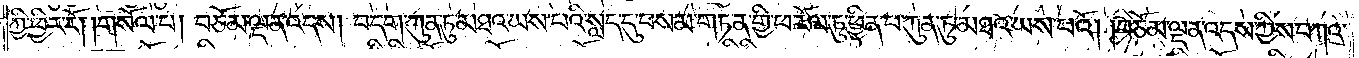ཀྱི་ཕྱིར་རོ། །གསོལ་པ། བཅོམ་ལྡན་འདས། བདག་ཀུན་ཏུ་མཐའ་ཡས་པའི་སླད་དུ་བསམ་གཏན་གྱི་ཕ་རོལ་ཏུ་ཕྱིན་པ་ཀུན་ཏུ་མཐའ་ཡས་པའོ། །བཅོམ་ལྡན་འདས་ཀྱིས་བཀའ་
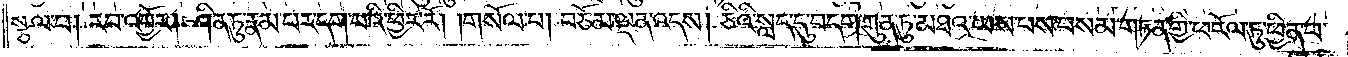སྩལ་པ། རབ་འབྱོར། ཤིན་ཏུ་རྣམ་པར་དག་པའི་ཕྱིར་རོ། །གསོལ་པ། བཅོམ་ལྡན་འདས། ཅིའི་སླད་དུ་བདག་ཀུན་ཏུ་མཐའ་ཡས་པས་བསམ་གཏན་གྱི་ཕ་རོལ་ཏུ་ཕྱིན་པ་
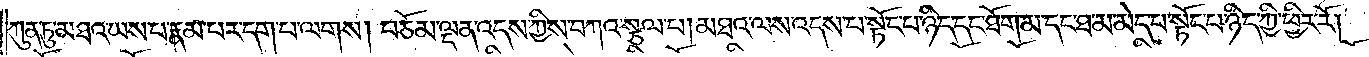ཀུན་ཏུ་མཐའ་ཡས་པ་རྣམ་པར་དག་པ་ལགས། བཅོམ་ལྡན་འདས་ཀྱིས་བཀའ་སྩལ་པ། མཐའ་ལས་འདས་པ་སྟོང་པ་ཉིད་དང་ཐོག་མ་དང་ཐ་མ་མེད་པ་སྟོང་པ་ཉིད་ཀྱི་ཕྱིར་རོ། །
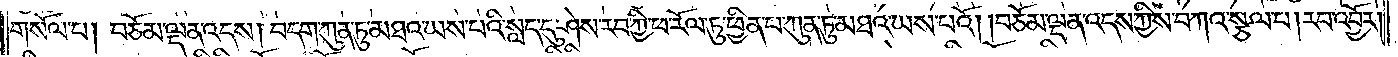གསོལ་པ། བཅོམ་ལྡན་འདས། བདག་ཀུན་ཏུ་མཐའ་ཡས་པའི་སླད་དུ་ཤེས་རབ་ཀྱི་ཕ་རོལ་ཏུ་ཕྱིན་པ་ཀུན་ཏུ་མཐའ་ཡས་པའོ། །བཅོམ་ལྡན་འདས་ཀྱིས་བཀའ་སྩལ་པ། རབ་འབྱོར།
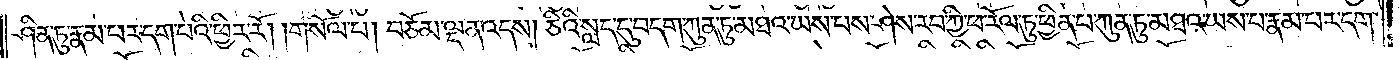ཤིན་ཏུ་རྣམ་པར་དག་པའི་ཕྱིར་རོ། །གསོལ་པ། བཅོམ་ལྡན་འདས། ཅིའི་སླད་དུ་བདག་ཀུན་ཏུ་མཐའ་ཡས་པས་ཤེས་རབ་ཀྱི་ཕ་རོལ་ཏུ་ཕྱིན་པ་ཀུན་ཏུ་མཐའ་ཡས་པ་རྣམ་པར་དག་
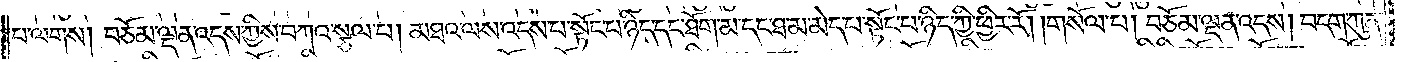པ་ལགས། བཅོམ་ལྡན་འདས་ཀྱིས་བཀའ་སྩལ་པ། མཐའ་ལས་འདས་པ་སྟོང་པ་ཉིད་དང་ཐོག་མ་དང་ཐ་མ་མེད་པ་སྟོང་པ་ཉིད་ཀྱི་ཕྱིར་རོ། །གསོལ་པ། བཅོམ་ལྡན་འདས། བདག་ཀུན་
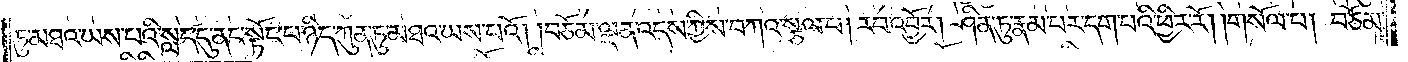ཏུ་མཐའ་ཡས་པའི་སླད་དུ་ནང་སྟོང་པ་ཉིད་ཀུན་ཏུ་མཐའ་ཡས་པའོ། །བཅོམ་ལྡན་འདས་ཀྱིས་བཀའ་སྩལ་པ། རབ་འབྱོར། ཤིན་ཏུ་རྣམ་པར་དག་པའི་ཕྱིར་རོ། །གསོལ་པ། བཅོམ་
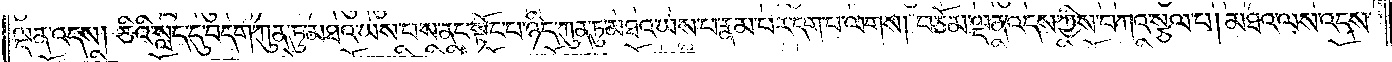ལྡན་འདས། ཅིའི་སླད་དུ་བདག་ཀུན་ཏུ་མཐའ་ཡས་པས་ནང་སྟོང་པ་ཉིད་ཀུན་ཏུ་མཐའ་ཡས་པ་རྣམ་པར་དག་པ་ལགས། བཅོམ་ལྡན་འདས་ཀྱིས་བཀའ་སྩལ་པ། མཐའ་ལས་འདས་
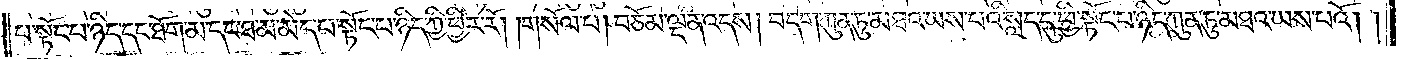པ་སྟོང་པ་ཉིད་དང་ཐོག་མ་དང་ཐ་མ་མེད་པ་སྟོང་པ་ཉིད་ཀྱི་ཕྱིར་རོ། །གསོལ་པ། བཅོམ་ལྡན་འདས། བདག་ཀུན་ཏུ་མཐའ་ཡས་པའི་སླད་དུ་ཕྱི་སྟོང་པ་ཉིད་ཀུན་ཏུ་མཐའ་ཡས་པའོ། །
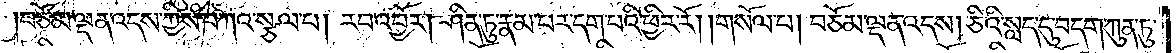བཅོམ་ལྡན་འདས་ཀྱིས་བཀའ་སྩལ་པ། རབ་འབྱོར། ཤིན་ཏུ་རྣམ་པར་དག་པའི་ཕྱིར་རོ། །གསོལ་པ། བཅོམ་ལྡན་འདས། ཅིའི་སླད་དུ་བདག་ཀུན་ཏུ་
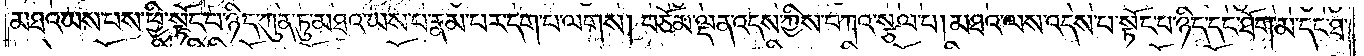མཐའ་ཡས་པས་ཕྱི་སྟོང་པ་ཉིད་ཀུན་ཏུ་མཐའ་ཡས་པ་རྣམ་པར་དག་པ་ལགས། བཅོམ་ལྡན་འདས་ཀྱིས་བཀའ་སྩལ་པ། མཐའ་ལས་འདས་པ་སྟོང་པ་ཉིད་དང་ཐོག་མ་དང་ཐ་
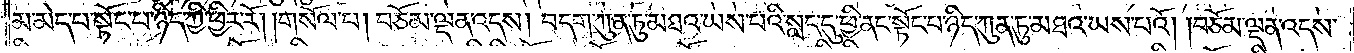མ་མེད་པ་སྟོང་པ་ཉིད་ཀྱི་ཕྱིར་རོ། །གསོལ་པ། བཅོམ་ལྡན་འདས། བདག་ཀུན་ཏུ་མཐའ་ཡས་པའི་སླད་དུ་ཕྱི་ནང་སྟོང་པ་ཉིད་ཀུན་ཏུ་མཐའ་ཡས་པའོ། །བཅོམ་ལྡན་འདས་
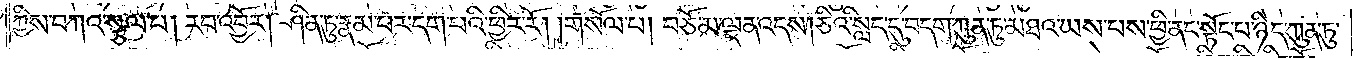ཀྱིས་བཀའ་སྩལ་པ། རབ་འབྱོར། ཤིན་ཏུ་རྣམ་པར་དག་པའི་ཕྱིར་རོ། །གསོལ་པ། བཅོམ་ལྡན་འདས། ཅིའི་སླད་དུ་བདག་ཀུན་ཏུ་མཐའ་ཡས་པས་ཕྱི་ནང་སྟོང་པ་ཉིད་ཀུན་ཏུ་
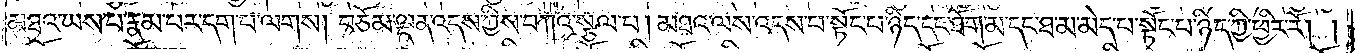མཐའ་ཡས་པ་རྣམ་པར་དག་པ་ལགས། བཅོམ་ལྡན་འདས་ཀྱིས་བཀའ་སྩལ་པ། མཐའ་ལས་འདས་པ་སྟོང་པ་ཉིད་དང་ཐོག་མ་དང་ཐ་མ་མེད་པ་སྟོང་པ་ཉིད་ཀྱི་ཕྱིར་རོ། །
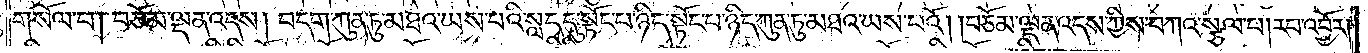གསོལ་པ། བཅོམ་ལྡན་འདས། བདག་ཀུན་ཏུ་མཐའ་ཡས་པའི་སླད་དུ་སྟོང་པ་ཉིད་སྟོང་པ་ཉིད་ཀུན་ཏུ་མཐའ་ཡས་པའོ། །བཅོམ་ལྡན་འདས་ཀྱིས་བཀའ་སྩལ་པ། རབ་འབྱོར།
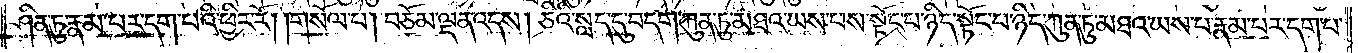ཤིན་ཏུ་རྣམ་པར་དག་པའི་ཕྱིར་རོ། །གསོལ་པ། བཅོམ་ལྡན་འདས། ཅིའི་སླད་དུ་བདག་ཀུན་ཏུ་མཐའ་ཡས་པས་སྟོང་པ་ཉིད་སྟོང་པ་ཉིད་ཀུན་ཏུ་མཐའ་ཡས་པ་རྣམ་པར་དག་པ་
